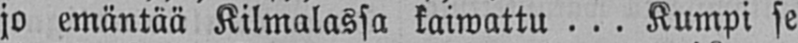jo emäntää Kilmalassa kaiwattu . . . Kumpi se
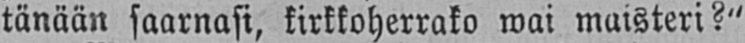tänään saarnasi, kirkkoherrako wai maisteri?"
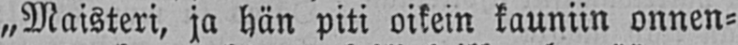„Maisteri, ja hän piti oikein kauniin onnen-
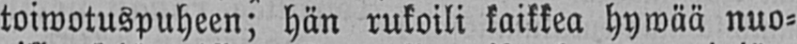toiwotuspuheen; hän rukoili kaikkea hywää nuo-
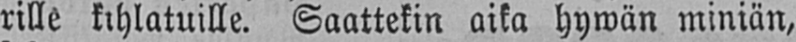rille kihlatuille. Saattekin aika hywän miniän,
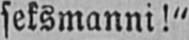seksmanni!"
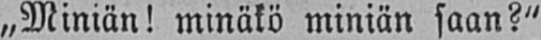„Miniän! minäkö miniän saan?"
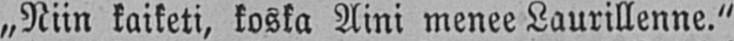„Niin kaiketi, koska Aini menee Laurillenne."
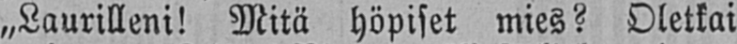„Laurilleni! Mitä höpiset mies? Oletkai
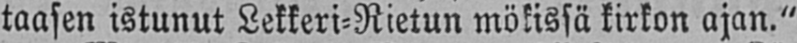taasen istunut Lekkeri-Rietun mökissä kirkon ajan."
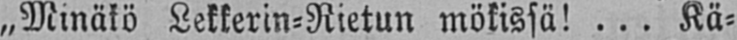„Minäkö Lekkerin-Rietun mökissä! . . . Kä-
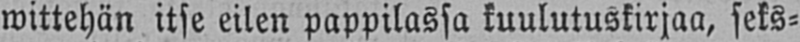wittehän itse eilen pappilassa kuulutuskirjaa, seks-
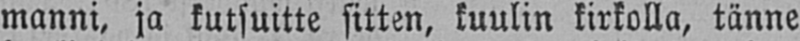manni, ja kutsuitte sitten, kuulin kirkolla, tänne
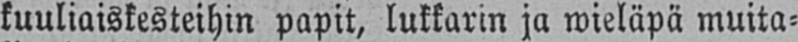kuuliaiskesteihin papit, lukkarin ja wieläpä muita-
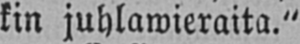kin juhlawieraita."
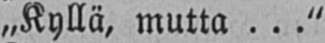„Kyllä, mutta . . ."
